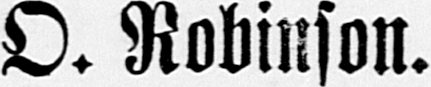O. Robinson.
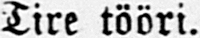Tire tööri.
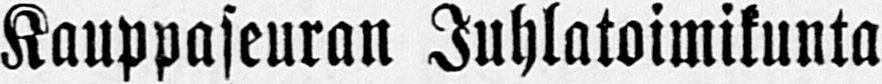Kauppaseuran Juhlatoimikunta
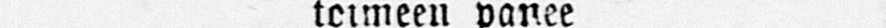toimeen panee
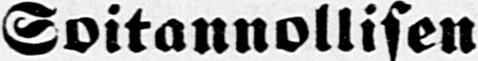Soitannollisen
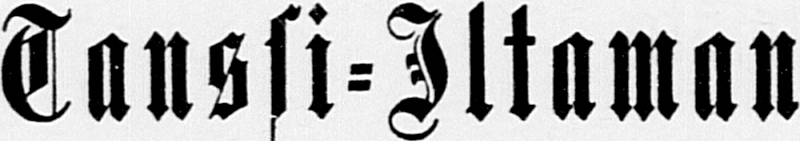Tanssi-Iltaman
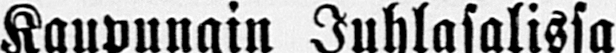Kaupungin Juhlasalissa
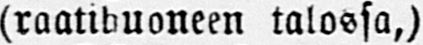(raatihuoneen talossa,)
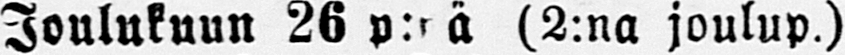Joulukuun 26 p:nä (2:na joulup.)
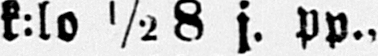k:lo ½ 8 j. pp.,
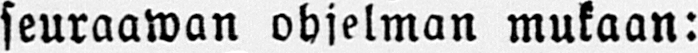seuraawan ohjelman mukaan:
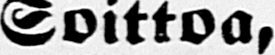Soittoa,
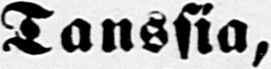Tanssia,
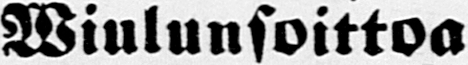Wiulunsoittoa
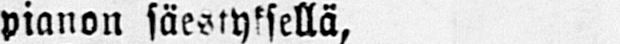pianon säestyksellä,
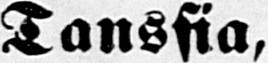Tanssia,
